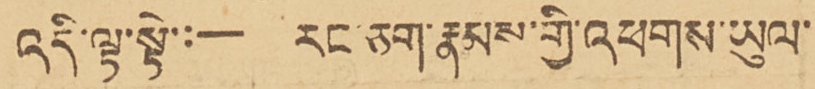འདི་ལྟ་སྟེ་:— རང་ཅག་རྣམས་གྱི་འཕགས་ཡུལ་
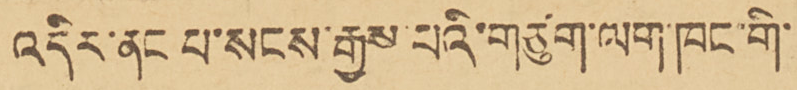འདིར་ནང པ་སངས་རྒྱས་པའི་གཙུག་ལག་ཁང་གི་
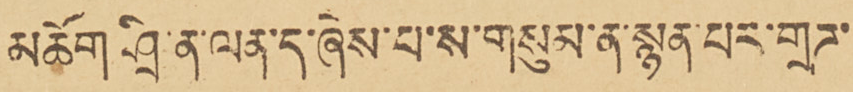མཆོག ཤི་ན་ལན་དུ་ཞེས་པ་ས་གསུམ་ན་སྙན་པར་གྲཌ་
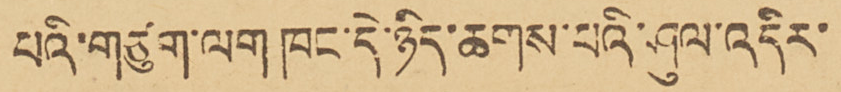པའི་གཙུག ལག ཁང་དེ་ཉིད་ཆགས་པའི་ཤུལ་འདིར་
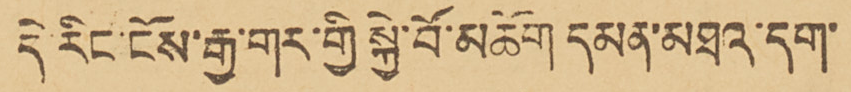དེ་རིང་ངོས་རྒྱ་གར་གྱི སྐྱེ་བོ་མཆོག དམན་མཐའ་དག་
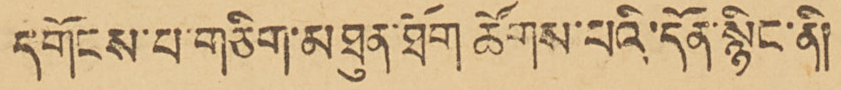དགོངས་པ་གཅིག་མཐུན་ཐོག ཚོགས་པའི་དོན་སྙིང་ནི།
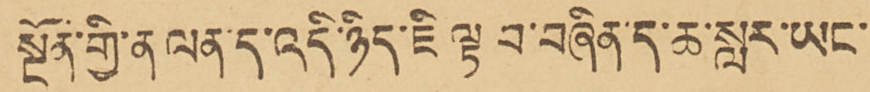སྔོན་གྱི་ན ལན་དུ་འདི་ཉིད་ཇི ལྟ བ་བཞིན་ད་ཆ་སླར་ཡང་
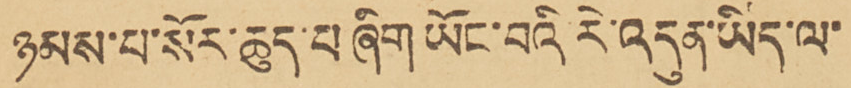ཉམས་པ་སོར་ཆུད་པ ཞིག ཡོང་བའི རེ་འདུན་ཡིད་ལ་
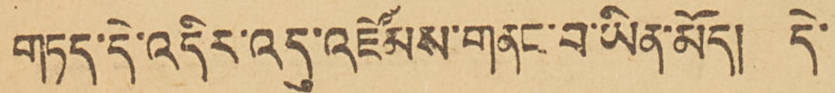གཏད་དེ་འདིར་འདུ་འཛོམས་གནང་བ་ཡིན་མོད། དེ་
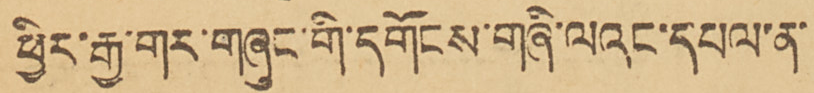ཕྱིར་རྒྱ་གར་གཞུང་གི་དགོངས་གཞི་ལའང་དཔལ་ན་
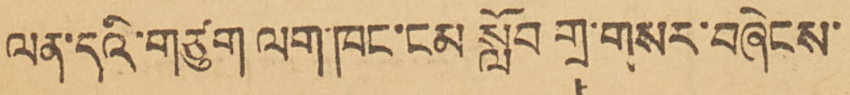ལན་དའི་གཙུག ལག་ཁང་ངམ་སློབ་གྲ་གསར་བཞེངས་
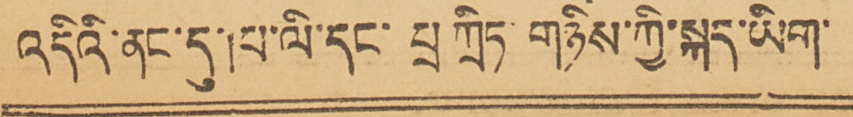འདིའི་ནང་དུ་པ་ལི་དང་པྲ་ཀྲིད་གཉིས་ཀྱི་སྐད་ཡིག་
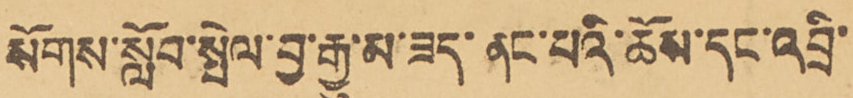སོགས་སློབ་སྤེལ་བྱ་རྒྱུ་མ་ཟད་ནང་པའི་ཆོས་དང་འབྲི་
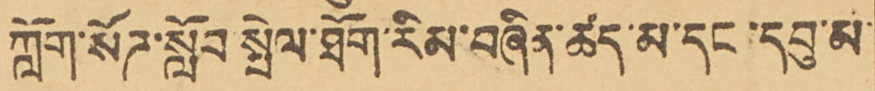ཀློག་སོཌ་སློབ་སྤེལ་ཐོག་རིམ་བཞིན་ཚད་མ་དང་དབུ་མ་
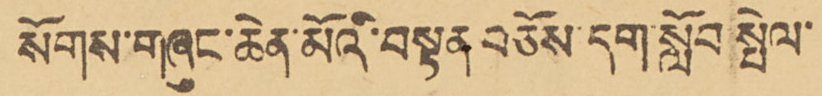སོགས་གཞུང་ཆེན་མོའི་བསྟན བཅོས་དག་སློབ སྤེལ་
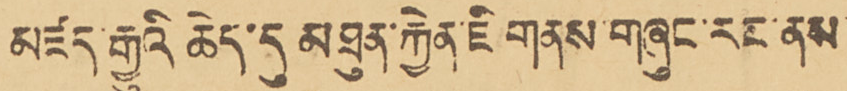མཛད་རྒྱུའི ཆེད་དུ མཐུན་རྐྱེན་ཇི གནས་གཞུང་རང་ནས
